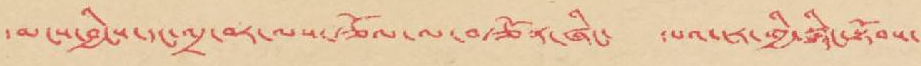དམངས་བྱིངས་དང་འདྲ་བར་ལས་ཙོལ་ལ་བཙོན་ཞིང་ དཔའ་ངར་གྱི་སྙིང་སྟོབས་
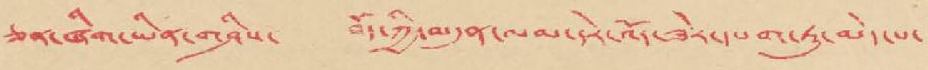ཅན་ཞིག་ཡིན་གཤིས་ བོད་ཀྱི་བདུན་ལམ་དེར་འོད་ཟེར་དཔག་ཏུ་མེད་པ་
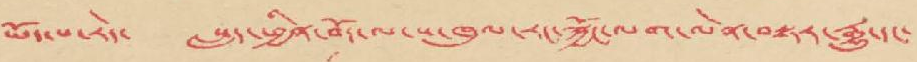ཡོད་པ་རེད་ སླད་ཕྱིན་བོད་ལ་ས་ཁུལ་རང་སྐྱོང་ལག་ལེན་བསྟར་རྒྱུ་དང་
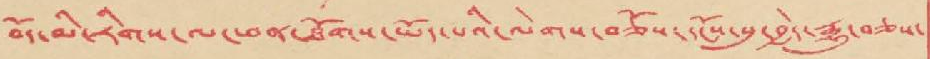བོད་མི་རིགས་ལ་ཕན་ཐོགས་ཡོད་པའི་ལེགས་བཅོས་དངོས་སུ་བྱེད་རྒྱུ་བཅས་
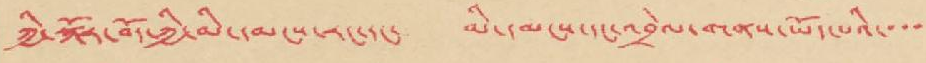ཀྱི་སྐོར་བོད་ཀྱི་མི་དམངས་རང་དང་ མི་དམངས་དང་འབྲེལ་གནས་ཡོད་པའི་་་་
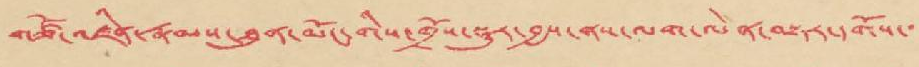གཙོ་འཛིན་རྣམས་ཐུན་མོང་གིས་གྲོས་སྡུར་བྱས་ནས་ལག་ལེན་བསྟར་དགོས་་
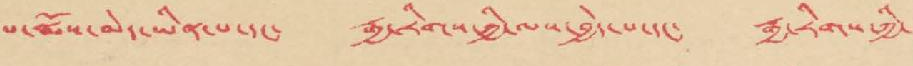པ་སྨོས་མེད་ཡིན་པ་དང་ རྒྱ་རིགས་ཀྱི་ལས་བྱེད་པ་དང་ རྒྱ་རིགས་ཀྱི་
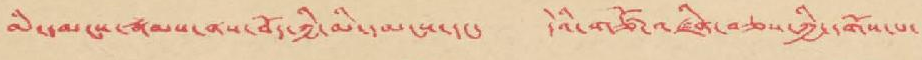མི་དམངས་རྣམས་ནས་བོད་ཀྱི་མི་དམངས་དང་ དེའི་གཙོ་འཛིན་བཅས་ཀྱི་དགོས་པ་
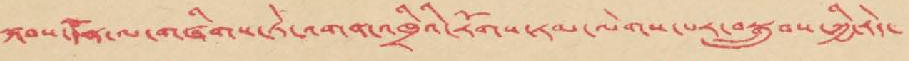སྐབས་དོན་ལ་གཞིགས་ཏེ་འགན་འཁྲིའི་རོགས་རམ་ལེགས་པར་བསྒྲུབས་ཀྱི་རེད་
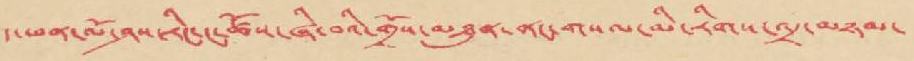ད་ཕན་ལོ་ཤས་རིང་ང་ཚོས་ཞི་བའི་གྲོས་མཐུན་ནང་གསལ་མི་རིགས་འདྲ་མཉམ་
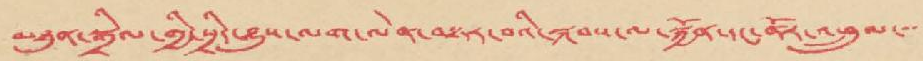མཐུན་སྒྲིལ་གྱི་སྲིད་བྱུས་ལག་ལེན་བསྟར་བའི་སྐབས་ལ་སྐྱོན་དང་ནོར་འཕྲུལ་་་
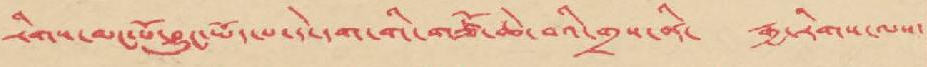རིགས་མང་པོ་བྱུང་ཡོད་པ་དེ་དག་གི་གཙོ་ཆེ་བའི་གྲས་ནི་ རྒྱ་རིགས་ལས་
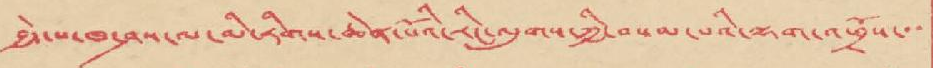བྱེད་པ་ཁ་ཤས་ལ་མི་རིགས་ཆེན་པོའི་རིང་ལུགས་ཀྱི་བསམ་པའི་ལྷག་འཕྲོས་་་
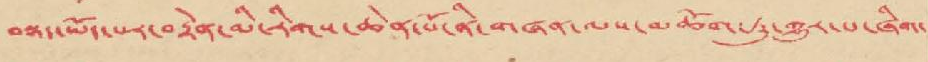བསྡད་ཡོད་པར་བརྟེན་མི་རིགས་ཆེན་པོ་ནི་གཞན་ལས་མཆོག་ཏུ་གྱུར་པ་ཞིག་
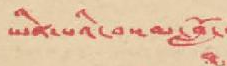ཡིན་པའི་བསམ་བློ་
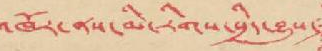འཁོར་ནས་མི་རིགས་སྲིད་བྱུས་
